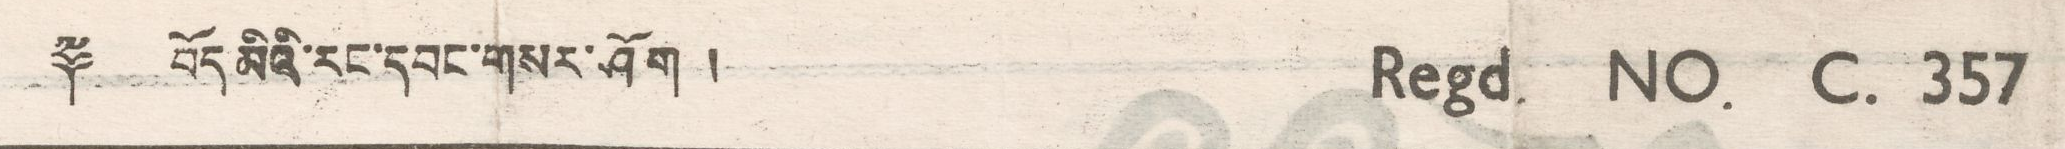༈  བོད་མིའི་རང་དབང་གསར་ཤོག །                 Regd.   NO.   C.  357
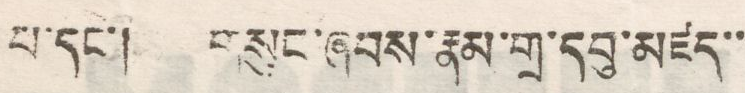པ་དང་། གསུང་ཞབས་རྣམ་གྲུ་དབུ་མཛད་་
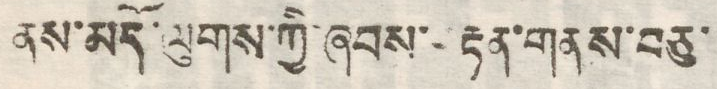ནས་མདོ་ལུགས་ཀྱི་ཞབས་བརྟན་གནས་བཅུ་
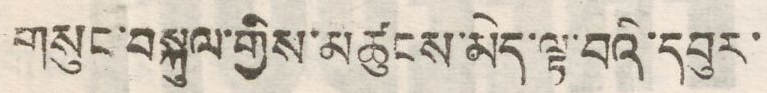གསུང་བསྐུལ་གྱིས་མཚུངས་མེད་ལྟ་བའི་དབུར་
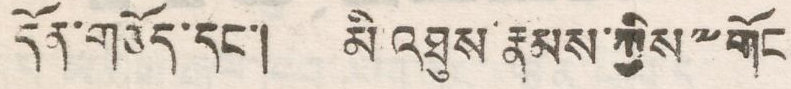དོན་གཅོད་དང་། མི འཐུས་རྣམས་ཀྱིས་༸གོང
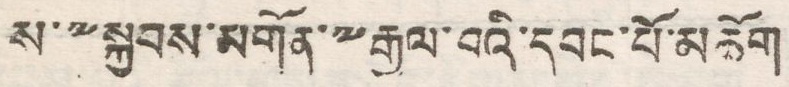ས་༸སྐྱབས་མགོན་༸རྒྱལ་བའི་དབང་པོ་མཆོག
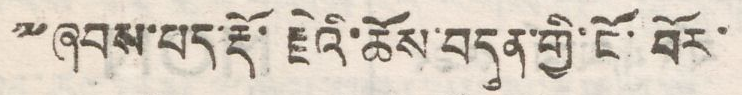༸ཞབས་པད་རྡོ་རྗེའི་ཆོས་བདུན་གྱི་ངོ་བོར་
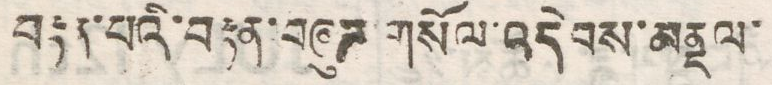བརྟན་པའི་བརྟན་བཞུཌ གསོལ་འདེབས་མནྡལ་
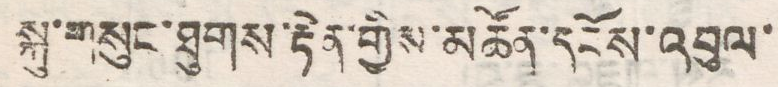སྐུ་གསུང་ཐུགས་རྟེན་གྱིས་མཚོན་དངོས་འབུལ་
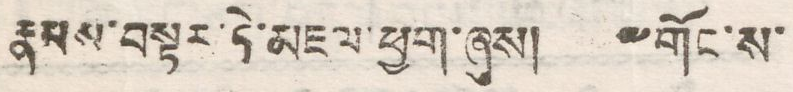རྣམས་བསྟར་ཏེ་མཇལ་ཕྱག་ཞུས། ༸གོང་ས་
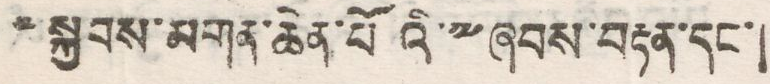༸སྐྱབས་མགན་ཆེན་པོའི་༸ཞབས་བརྟན་དང་།
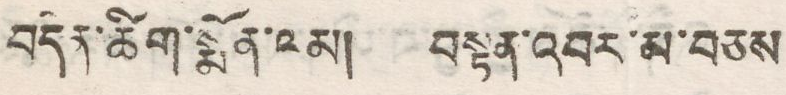བདེན་ཚིག་སྨོན་ལམ། བསྟན་འབར་མ་བཅས
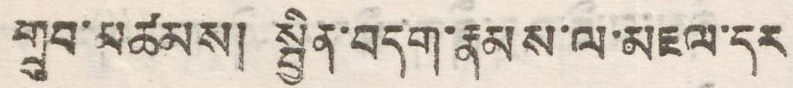གྲུབ་མཚམས། སྦྱིན་བདག་རྣམས་ལ་མཇལ་དར
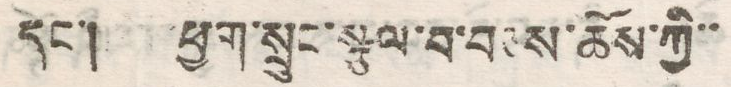དེང་། ཕྱག་སྲུང་སྩལ་བ་བཅས་ཆོས་ཀྱི་་
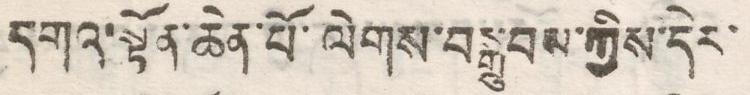དགའ་སྟོན་ཆེན་པོ་ལེགས་བསྒྲུབས་ཀྱིས་དེར་
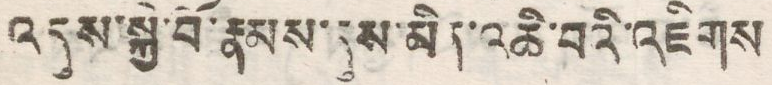འདུས་སྐྱེ་བོ་རྣམས་དུས་མིན་འཆི་བའི་འཇིགས
